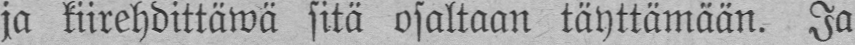ja kiirehdittäwä sitä osaltaan täyttämään. Ja
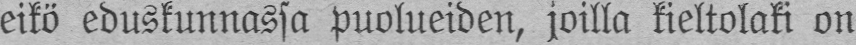eikö eduskunnassa puolueiden, joilla kieltolaki on
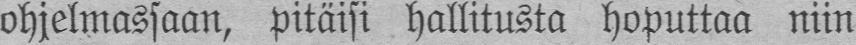ohjelmassaan, pitäisi hallitusta hoputtaa niin
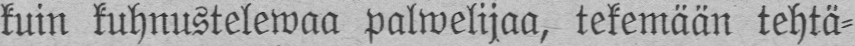kuin kuhnustelwaa palwelijaa, tekemään tehtä-
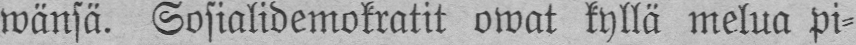wänsä. Sosialidemokratit owat kyllä melua pi-
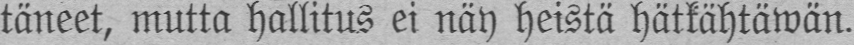täneet, mutta hallitus ei näy heistä hätkähtäwän.
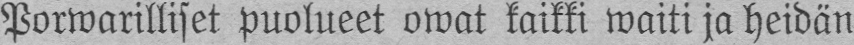Porwarilliset puolueet owat kaikki waiti ja heidän
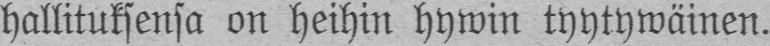hallituksensa on heihin hywin tyytywäinen.
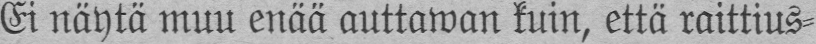Ei näytä muu enää auttawan kuin, että raittius-
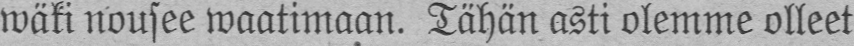wäki nousee waatimaan. Tähän asti olemme olleet
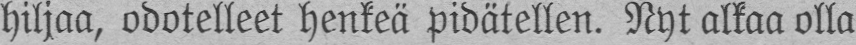hiljaa, odotelleet henkeä pidätellen. Nyt alkaa olla
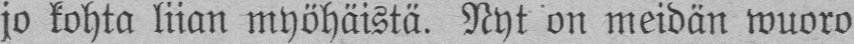jo kohta liian myöhäistä. Nyt on meidän wuoro
